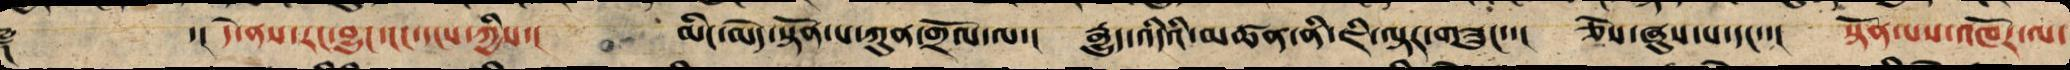༈ ་།། དེ་ནས་རང་བྱུང་ངང་དངས་ཀྱིས་། མིང་མེད་སྟོན་པ་ཀུན་གྲོལ་ལ་། རྒྱུད་འདིའི་མཚན་ནི་ཇི་ལྟར་གཟུང་་། ཅེས་ཞུས་པ་དང་་། སྟོན་པས་འཁོར་ལ་
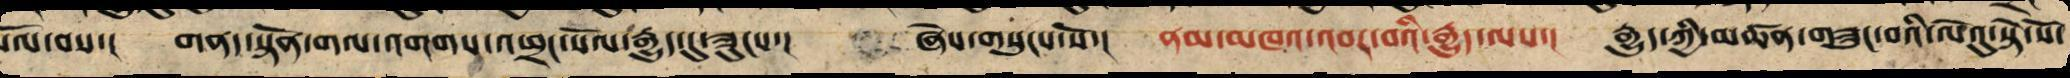སོལ་བས་། གནད་སྟོན་གལ་འགགས་འཕྲང་སེལ་རྒྱུད་དུ་ཟུངས་། ཞེས་གསུངས་སོ་། ནམ་མཁའ་འབར་བའི་རྒྱུད་ལས་། རྒྱུད་ཀྱི་མཚན་བཟུང་བའི་ལེའུ་སྟེ་སོ་
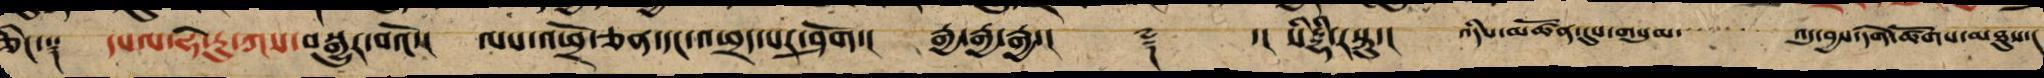ཅིང་་། དཔལ་ཧེ་རུ་ཀས་བསྒྱུར་བའོ་། ལས་འཕྲོ་ཅན་དང་འཕྲད་པར་ཤོག་། རྒྱ་རྒྱ་རྒྱ།། ༈ སིདྡྷི་རསྟུ་། འདིས་མཚོན་དུས་གསུམ་     འདུ་བྱས་དགེ་ཚོགས་མཐུས་།
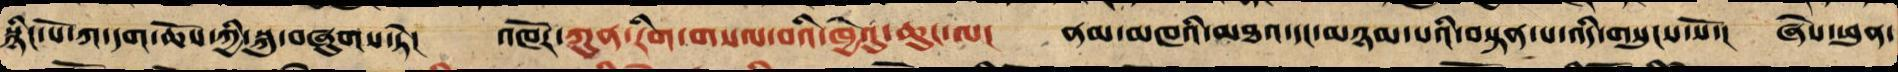སྙིང་པོ་ཀ་དག་ཆོས་ཀྱི་སྐུ་བཞུགས་ཏེ་། འཁོར་ཀུན་རིག་གསལ་བའི་ཁྱེའུ་ཆུང་ལ་། ནམ་མཁའི་མཐའ་དང་མཉམ་པའི་བསྟན་པ་འདི་གསུངས་སོ་། ཞེས་ཕུན་
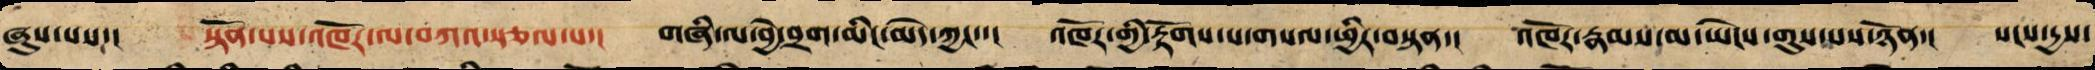ཞུས་པས་། སྟོན་པས་འཁོར་ལ་བཀའ་སྩལ་པ་། གཞི་ལ་བྱེ་བྲག་མིང་མེད་ཀྱང་་། འཁོར་གྱི་རྟོག་པ་བསལ་ཕྱིར་བསྟན་། འཁོར་རྣམས་མ་ཡེངས་གུས་པས་ཉོན་། སངས་དྱས་
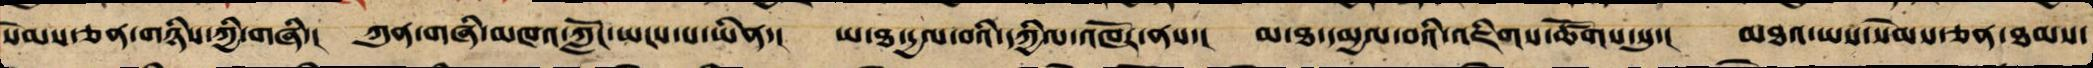སེམས་ཅན་གཉིས་ཀྱི་གཞི་། ཀུན་གཞི་མཁའ་ཀློང་ཡངས་པ་ཡིན་། ཡ་ཐ་དྱལ་བའི་དཀྱིལ་འཁོར་ནས་། མ་ཐ་དམྱལ་བའི་འཇིགས་ཚོགས་སུ་། མཐའ་ཡས་སེམས་ཅན་ཐམས་
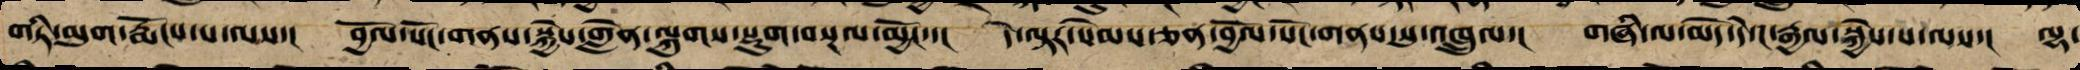གཏི་མུག་རྨོངས་པ་ལས་། བྱོལ་སོང་གནས་སྐྱེས་གླེན་ལྐུགས་སྡུག་བསྔལ་མྱོང་་། དེ་ལྟར་སེམས་ཅན་བྱོལ་སོང་གནས་སུ་འཁྲུལ་། གཞི་ལ་མེད་དེ་ང་རྒྱལ་སྐྱེས་པ་ལས་། ལྷ་
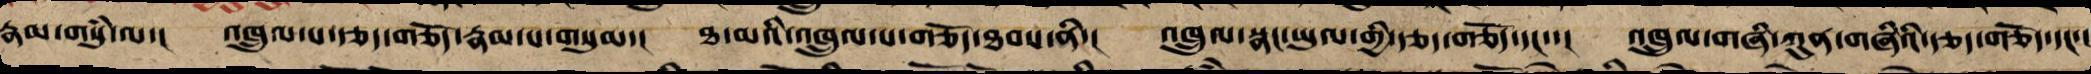རྣམ་གསུཾ་ལ་། འཁྲུལ་པ་གཅོད་ཐབས་རྣམ་པ་གསུམ་། ཐ་མའི་འཁྲུལ་པ་གཅོད་ཐབས་ནི་། འཁྲུལ་སྣང་ཡུལ་གྱི་རྩད་གཅོད་དང་་། འཁྲུལ་གཞི་ཀུན་གཞིའི་རྩད་གཅོད་དང་།
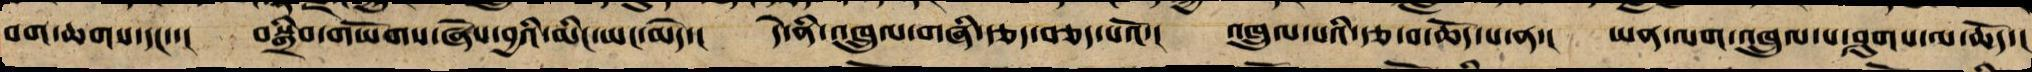བག་ཆགས་དང་་། བསྒྲིབ་གཡོགས་ཞེས་བྱའི་མིང་ཡང་མེད་། དེ་ནི་འཁྲུལ་གཞི་རྩད་བཅད་པའོ་། འཁྲུལ་པའི་རྩ་བ་ཆོད་པ་ན་། ཡན་ལག་འཁྲུལ་པ་ཤུགས་ལ་ཆོད་།
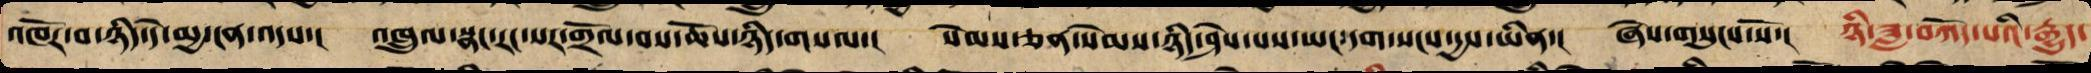འཁོར་བ་ཉིད་ནི་མྱ་ངན་འདས་། འཁྲུལ་སྣང་རང་སར་གྲོལ་བས་ཆོས་ཉིད་གསལ་། སེམས་ཅན་སེམས་ཉིད་ཤེས་པས་ཡང་དག་སངས་རྒྱས་ཡིན་། ཞེས་གསུངས་སོ་། ཉི་ཟླ་བཀོད་པའི་རྒྱུད་
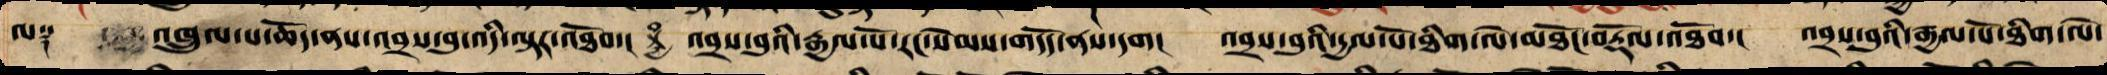སྐུ་ལ། །འཁྲུལ་པ་ཆོད་ནས་འབྲས་བུ་ཇི་ལྟར་འཐོབ། །འབྲས་བུའི་རྒྱལ་པོ་རང་སེམས་གདོད་ནས་དག །འབྲས་བུའི་རྒྱལ་པོ་ཐིག་ལེ་མཐོང་བརྡོལ་འཐོབ། །འབྲས་བུའི་རྒྱལ་པོ་ཐིག་ལེ་
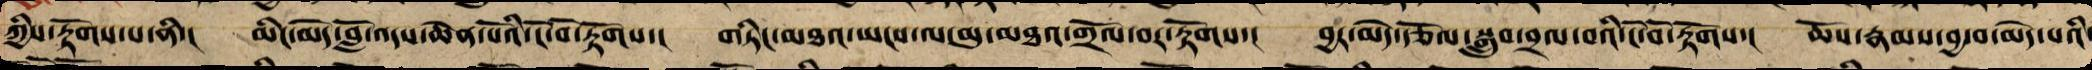ཀྱིས་རྟོགས་པ་ནི་། མིང་མེད་བློ་འདས་ཆེན་པོའི་ངོ་བོ་རྟོགས་། གཏིང་མཐའ་ཡངས་ལ་མུ་མཐའ་གྲོལ་བར་རྟོགས་། བྱར་མེད་རྩོལ་སྒྲུབ་བྲལ་བའི་ངོ་བོ་རྟོགས་། ཆོས་རྣམས་བྱ་བ་མེད་པའི་
